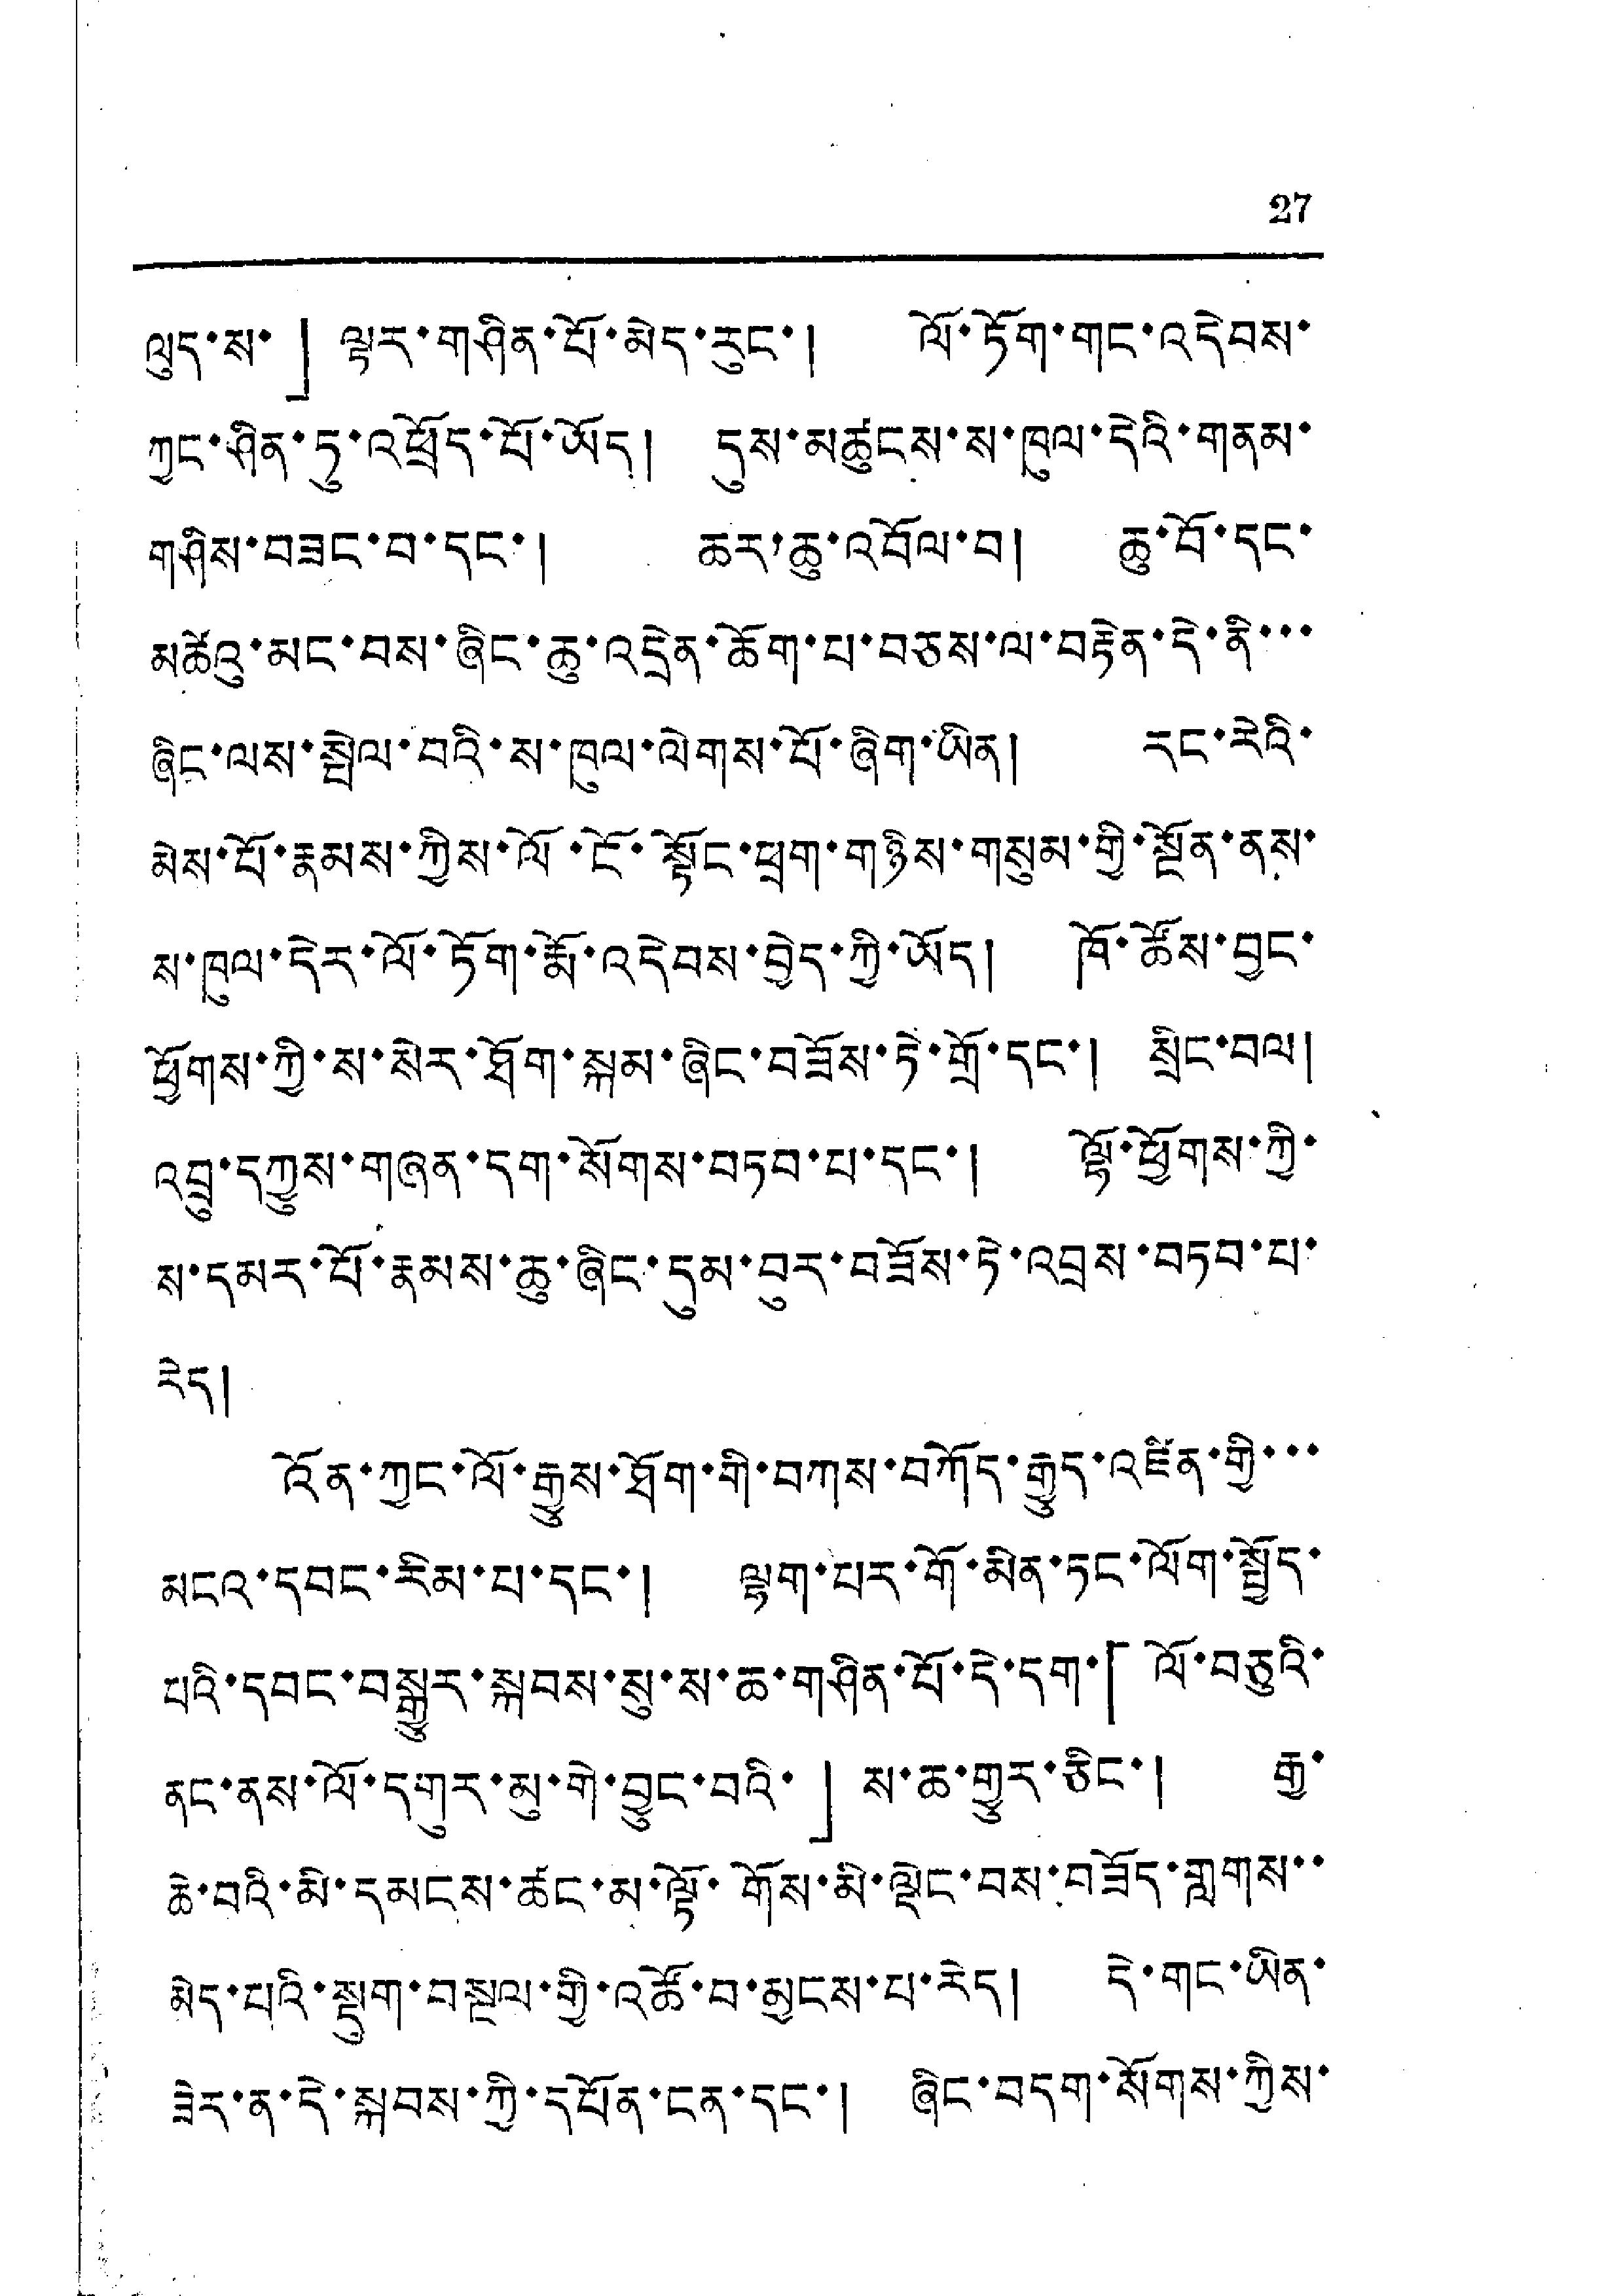27
ལུད་ས་」ལྟར་གཤིན་པོ་མེད་རུང་། ལོ་ཏོག་གང་འདེབས་
ཀྱང་ཤིན་ཏུ་འཕྲོད་པོ་ཡོད། དུས་མཚུངས་ས་ཁུལ་དེའི་གནམ་
གཤིས་བཟང་བ་དང་། ཆར་ཆུ་འབྲོལ་བ། ཆུ་བོ་དང་
མཚེའུ་མང་བས་ཞིང་ཆུ་འདྲེན་ཆོག་པ་བཅས་ལ་བརྟེན་དེ་ནི་་་
ཞིང་ལས་སྤེལ་བའི་ས་ཁུལ་ལེགས་པོ་ཞིག་ཡིན། རང་རེའི་
མེས་པོ་རྣམས་ཀྱིས་ལོ་ངོ་སྟོང་ཕྲག་གཉིས་གསུམ་གྱི་སྔོན་ནས་
ས་ཁུལ་དེར་ལོ་ཏོག་རྨོ་འདེབས་བྱེད་ཀྱི་ཡོད། ཁོ་ཚོས་བྱང་
ཕྱོགས་ཀྱི་ས་སེར་ཐོག་སྐམ་ཞིང་བཟོས་ཏེ་གྲོ་དང་། སྲིང་བལ།
འབྲུ་དཀྱུས་གཞན་དག་སོགས་བཏབ་པ་དང་། ལྷོ་ཕྱོགས་ཀྱི་
ས་དམར་པོ་རྣམས་ཆུ་ཞིང་དུམ་བུར་བཟོས་ཏེ་འབྲས་བཏབ་པ་
རེད།
འོན་ཀྱང་ལོ་རྒྱུས་ཐོག་གི་བཀས་བཀོད་རྒྱུད་འཛིན་གྱི་་་
མངའ་དབང་རིམ་པ་དང་། ལྷག་པར་གོ་མིན་ཏང་ལོག་སྤྱོད་
པའི་དབང་བསྒྱུར་སྐབས་སུ་ས་ཆ་གཤིན་པོ་དེ་དག་「ལོ་བཅུའི་
ནང་ནས་ལོ་དགུར་མུ་གེ་བྱུང་བའི་」ས་ཆ་གྱུར་ཅིང་། རྒྱ་
ཆེ་བའི་མི་དམངས་ཚང་མ་ལྟོ་གོས་མི་ལྡེང་བས་བཟོད་གླགས་་
མེད་པའི་སྡུག་བསྔལ་གྱི་འཚོ་བ་མྱངས་པ་རེད། དེ་གང་ཡིན་
ཟེར་ན་དེ་སྐབས་ཀྱི་དཔོན་ངན་དང་། ཞིང་བདག་སོགས་ཀྱིས་
